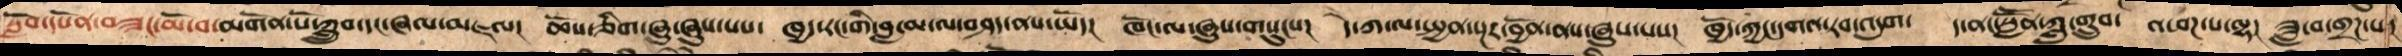སློབ་དཔོན་བཟང་མོ་བ་མགོན་པོ་ཀླྲུབ་དང་ཞལ་མཇལ།  ཆོས་ཅིག་ཞུ་ཞུས་པས།  ཁྱད་རང་གི་བླ་མ་ལ་བཤད་ནས་ཡོད།  ཁོང་ལ་ཞུས་གསུངས།   དེ་ཀ་ལ་སྤྱན་སྔར་བྱོན་ནས་ཞུས་པས་  ཁྱོད་ཀྱང་དགའ་རབ་འདུག་   ད་ནང་སླཽན་ཀླུ་གྲུབ།  འཕཌ་པ་ལྷ།   ཟླ་བ་གྲཌ་པ་
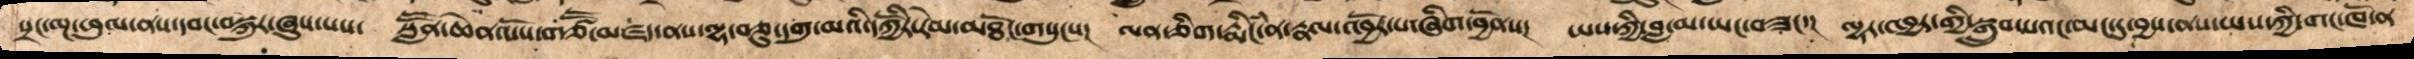སྲང་ལྔ་ཕུལ་ནས་དབང་བསྐུར་ཞུས་པས།   སླཽན་ཆེན་པོས་གཙཽ་མཛད་ནས་ལྷ་བཅུ་དགུ་མའི་དཀྱོརི་རེམ་མཐོང་གསུངས།  ལན་ཅིག་རྨིངཾ་ན་རྣལ་འབྱོར་པ་ཞིག་བྱོནས། ཡས་ཀྱི་བླ་མ་ཡང་བཟང་།   ལྷར་འབྱར་གྱི་སྒྲུབ་པའང་མང་དུ་བྱས་ན་ཡས་ཀྱི་གང་ཁོ་ན་
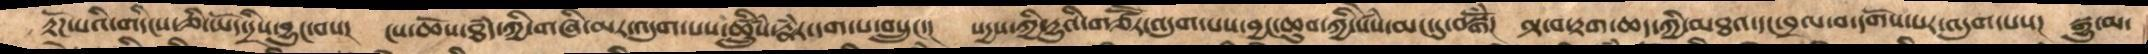རྟོཌ་པའི་གདིངས་ཅི་ཡོད་དྲིས་བྱུང་བས། ངས་ཆོས་ཐཾད་ཀྱི་གཞི་མར་འདུགཔས་ཚྲིུཾས་རྣཾར་དག་པ་བསྲུང།  སདྱས་ཀྱི་དྱུའི་གཙོར་འདུག་པས་བྱང་ཆུབ་ཀྱི་སེསཾ་་མང་དུ་བསྒོཾ། ལྟ་བ་རྟག་ཆད་ཀྱི་མཐའ་དང་བྲལ་བ་དགོས་པར་འདུག་པས། སྒྱུ་མ་
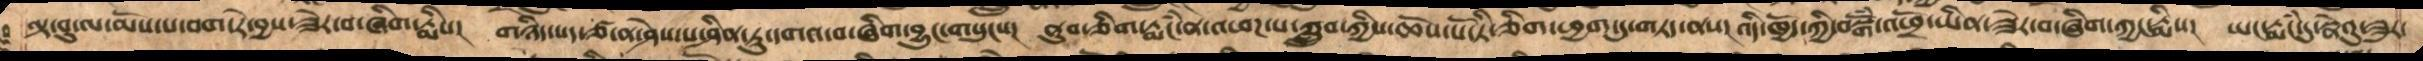ལྟ་བུ་ལ་མོས་པ་བག་རེ་བྱས་ཟེར་བ་ཞིག་རྨིས།  གཉིད་སད་ཙ་ན་ཤེས་པ་ཤིན་ཏུ་དགའ་བ་ཞིག་བྱུང་གསུངས།  ནུབ་ཅིག་རྨངཾ་ན་འཕཌ་པ་ཀླྲུབ་ཀྱིས་ཆོས་པོ་ཏི་ཅིག་ཕྱག་དུ་གཏད་ནས། འདི་ཁྱོད་ཀྱི་བསྒོཾ་འཕྲོ་ཡིན་ཟེར་བ་ཞིག་ཀྱང་རྨིས། ཡང་རྨངཾ་དུ་སྣེའུ་ཟུར་
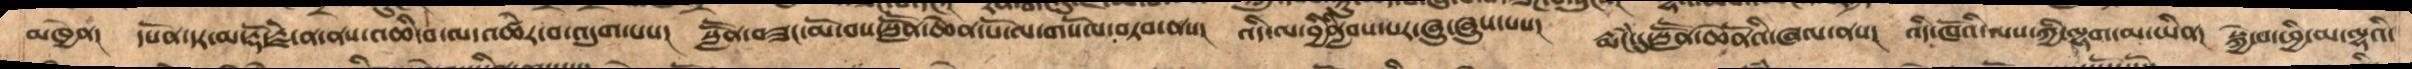མཁྱེན།  དཔོན་དར་མ་རྡོ་རྗེ་ན་ནས་འཆི་བ་ལ་འཚེར་བ་འདུག་པས།  སླཽན་བཟང་མོ་བས་སླཽན་ཆེན་པོ་ལ་གསོལ་བཏབ་ནས།  འདི་ལ་བྱིནླིབས་པར་ཞུ་ཞུས་པས།  རྨངཾ་དུ་སླཽན་ཆེནོའི་ཞལ་ནས།  འདི་ཁོའི་ལས་ཀྱི་ལྷག་མ་ཡིན། སྐྱེ་བ་ཕྱི་མ་ལྷའི་
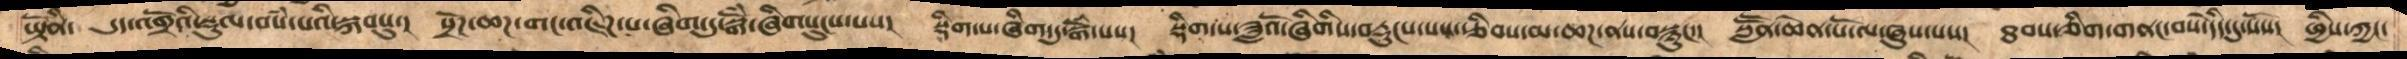ཡྟོནི།  དུད་འགྲོའི་སྡུལ་བསཾ་པའི་སྐབསུ།  སྲོཌ་ཆཌ་གང་འཇིཌ་པ་ཞིག་དུ་སྒོཾ་ཞིག་གསུངས་པས།  སྡིག་པ་ཞིག་དུ་སྒོཾ་པས། སྡིག་པ་ཟླའོ་ཞིགིས་བརྡུངས་པས་རྩིབས་མ་ཆཌ་ནས་བསྙུང་།  སླཽན་ཆེན་པོ་ལ་ཞུས་པས།   ཐབས་ཅིག་གནང་བས་དེདི་དུ་སོས།  ཕྱིས་ཀྱང་
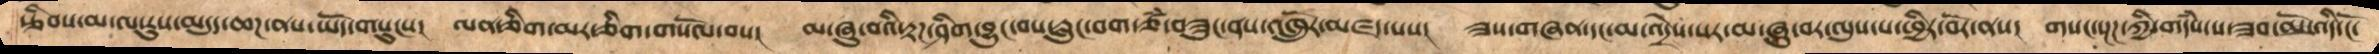རྩིབས་མ་ལ་རུས་མདུད་ཆཌ་ནས་ཡོད་གསུངས།  ལན་ཅིག་མར་ཅིག་གསོལ་བས།   མ་ཞུ་བའི་རྟཌ་ཤིག་བྱུང་བས་རླུང་བག་ཙཾ་བཟུང་ནས་འཁྲོུར་མཛད་པས།   ཟས་གཞན་དང་མ་འདྲེས་པར་མ་ཞུ་བར་ལུས་པ་ཕྱིར་བོར་ནས།  གསང་སྔཌ་ཀྱི་གདཾས་པ་ཟབ་མོ་འདི་ངོ་
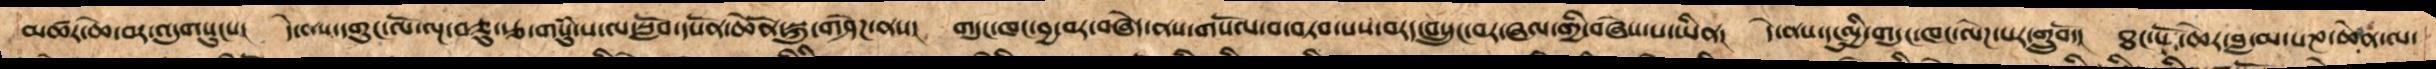མཚར་ཆེ་བར་འདུགསུངས།  དེ་ནས་དགུང་ལོ་ལྔ་བཅུ་རྩ་གསུཾ་པ་ལ་སློབ་དཔོན་ཆེནོ་སྐུ་གཤེཌ་ནས།   གདུང་ཁང་བྱ་བར་བཞེད་ནས་གསོལ་བ་བཏབ་པས་བརད་བསྲུང་བར་ཞལ་གྱི་བཞེས་པ་ཡིན།  དེ་ནས་དངུལྱི་གདུང་ཁང་ལེཌ་པར་གྲུབོ་།   ཐང་པོ་ཆེར་བླ་མ་པཎ་ཆེན་ལ་
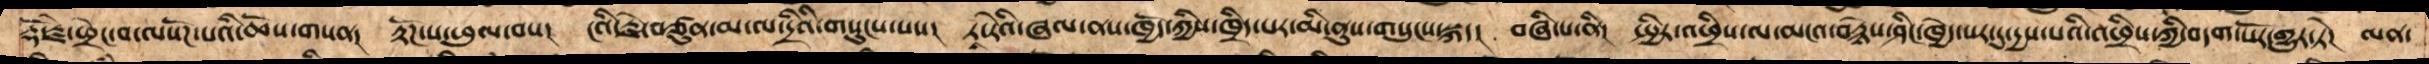རྡོ་རྗེ་ཕྲེང་བ་ལསོཌ་པའི་ཆོས་གསན།  རྟོཌ་པ་ཕུལ་བས།   ངའི་རྗེ་བཙུན་མ་ལ་དྲིའི་གསུངས་པས།   ཏ་རེའི་ཞལ་ནས་ཁྱོད་ཀྱིས་ཁྲིད་པར་མི་ནུས་གསུངས་སྐད།  བཞི་པ་ནི།  སྤྱིར་འཕྲིས་ལ་མངའ་བརྙེས་ཤིང་ཁྱེད་པར་དུ་དྱས་པའི་འཕྲིས་ཀྱི་བདག་པོར་གྱུར་ཏེ།  ལན་
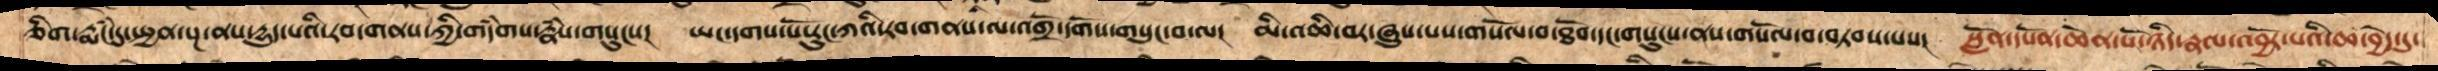ཅིག་རྨངཾ་དུ་སྤྱན་སྔ་ནས་དྱུད་པའི་རབ་གནས་ཀྱི་གདཾགས་རྣཾས་གསུངས།  ཡང་དགས་པོ་རུང་ཀའི་རབ་གནས་ལ་འགྲོ་དགོས་གསུང་བ་ལ།  མི་འཆི་བར་ཞུས་པས་གསོལ་བ་ཐོབ་དང་གསུངས་ནས་གསོལ་བ་བཏབས་པས།  སློབ་དཔོན་ཆེན་པོ་ཉིད་རྣལ་འབྱོར་པའི་ཆ་བྱེད་དུ་
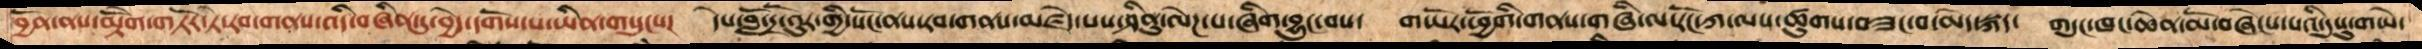བྱོན་ནས་མྟེགོ་གཏོར་ཏེ་རབ་གནས་འདི་བཞིན་དུ་བྱེད་དགོས་པ་ཡིན་གསུངས།   དེས་བློ་དྲོ་འུར་གྱི་སོང་ནས་རབ་གནས་མཛད་པས་ཤིནུ་ལེཌ་པ་ཞིག་བྱུང་བས།  གཡོར་ཕྱོགི་གནས་གཞི་ལ་རོང་ཀ་ལས་ཚུགས་བཟང་བ་མེད་སྐད།  གདུང་ཁང་ཆེན་མོ་བཞེངས་པའི་དུསུ་གཡེ་
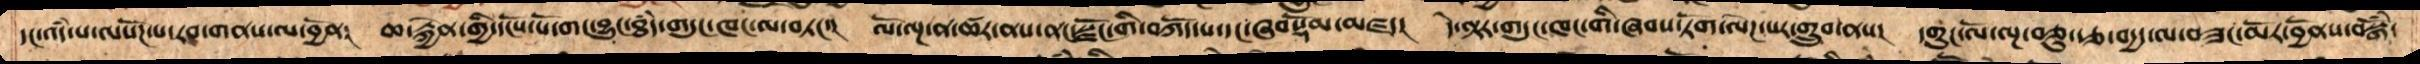དང་འདཾ་པ་ལསོཌ་པ་རབ་གནས་ལ་བྱོན།  ཆ་རྐྱེན་གྱི་དངོས་པོ་གང་བྱུང་ཐཾད་གདུང་ཁང་ལ་བཏང་།  ལོ་ལྔ་ན་ཚར་ནས་ནང་སྫོང་གི་བཀོད་པ་དང་ཞབསྡོམ་མཛད།  དེ་ལྟར་གདུང་ཁང་གི་ཞབས་ཏོག་ལེཌ་པར་གྲུབ་ནས།  དགུང་ལོ་ལྔ་བཅུ་རྩ་བདྱད་ལ་བཟང་མོར་བྱོནས་བསྒོཾ་
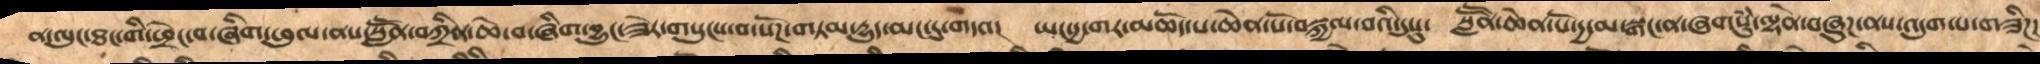ན་ལུང་ཐང་གི་ཕྲེང་བ་ཞིག་ཕུལ་ནས་སླཽན་བཀྲིན་ཆེ་བ་ཞིག་བྱུང་ཟེར་གསུངས་བ་སོཌ་པ་གཏམ་དྱུད་མང་དུ་གདབ།   ཡང་དྱ་གར་མཆོད་པ་ཆེན་པོ་བསྐྱལ་བའི་དུསུ།   སླཽན་ཆེན་པོ་དྱ་མ་སྒང་ན་ཞགསུཾ་ལྷན་བཞུཌ་ནས་འདུག་པ་གཟིཌ།
